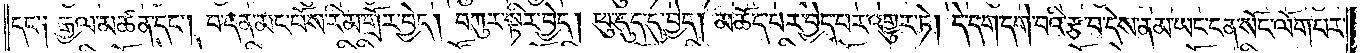དང་༑ རྒྱལ་མཚན་དང༌། བ་དན་མང་པོས་རིམ་གྲོར་བྱེད། བཀུར་སྟིར་བྱེད། ཕུ་དུད་དུ་བྱེད། མཆོད་པར་བྱེད་པར་འགྱུར་ཏེ། དེ་དག་དགེ་བའི་རྩ་བ་དེས་ནམ་ཡང་ངན་སོང་ལོག་པར་
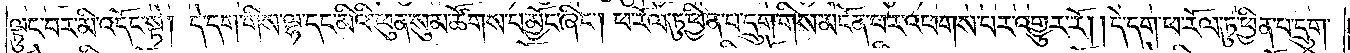ལྟུང་བར་མི་འདོང་སྟེ། དེ་དག་གིས་ལྷ་དང་མིའི་ཕུན་སུམ་ཚོགས་པ་མྱོང་ཞིང༌། ཕ་རོལ་ཏུ་ཕྱིན་པ་དྲུག་གིས་མངོན་པར་འཕགས་པར་འགྱུར་རོ། །དེ་དག་ཕ་རོལ་ཏུ་ཕྱིན་པ་དྲུག་
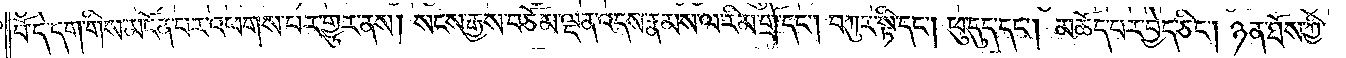པོ་དེ་དག་གིས་མངོན་པར་འཕགས་པར་གྱུར་ནས། སངས་རྒྱས་བཅོམ་ལྡན་འདས་རྣམས་ལ་རིམ་གྲོ་དང༌། བཀུར་སྟི་དང༌། ཕུ་དུད་དང༌། མཆོད་པར་བྱེད་ཅིང༌། ཉན་ཐོས་ཀྱི་
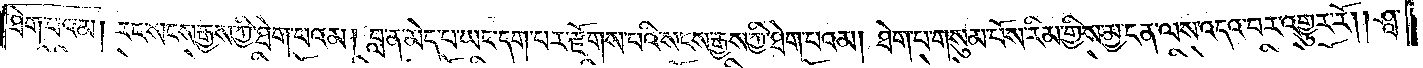ཐེག་པའམ། རང་སངས་རྒྱས་ཀྱི་ཐེག་པའམ། བླ་ན་མེད་པ་ཡང་དག་པར་རྫོགས་པའི་སངས་རྒྱས་ཀྱི་ཐེག་པའམ། ཐེག་པ་གསུམ་པོས་རིམ་གྱིས་མྱ་ངན་ལས་འདའ་བར་འགྱུར་རོ། །ཤཱ་
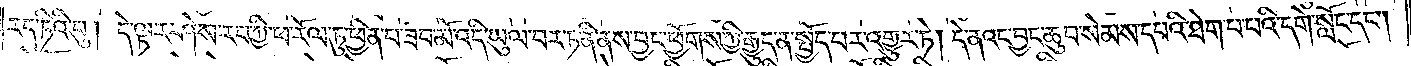རདྭ་ཏིའི་བུ། དེ་ལྟར་ཤེས་རབ་ཀྱི་ཕ་རོལ་ཏུ་ཕྱིན་པ་ཟབ་མོ་འདི་ཡུལ་བར་ཏ་ནི་ནས་བྱང་ཕྱོགས་ཀྱི་རྒྱུད་ན་སྤྱོད་པར་འགྱུར་ཏེ། དེ་ནའང་བྱང་ཆུབ་སེམས་དཔའི་ཐེག་པ་པའི་དགེ་སློང་དང༌།
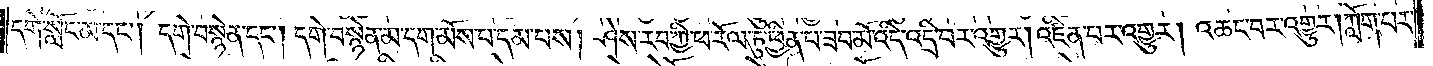དགེ་སློང་མ་དང༌། དགེ་བསྙེན་དང༌། དགེ་བསྙེན་མ་དག་མོས་པ་དམ་པས། ཤེས་རབ་ཀྱི་ཕ་རོལ་ཏུ་ཕྱིན་པ་ཟབ་མོ་འདི་འདྲི་བར་འགྱུར། འཛིན་པར་འགྱུར། འཆང་བར་འགྱུར། ཀློག་པར་
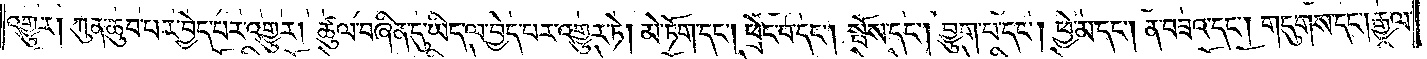འགྱུར། ཀུན་ཆུབ་པར་བྱེད་པར་འགྱུར། ཚུལ་བཞིན་དུ་ཡིད་ལ་བྱེད་པར་འགྱུར་ཏེ། མེ་ཏོག་དང༌། ཕྲེང་བ་དང༌། སྤོས་དང༌། བྱུག་པ་དང༌། ཕྱེ་མ་དང༌། ན་བཟའ་དང༌། གདུགས་དང༌། རྒྱལ་
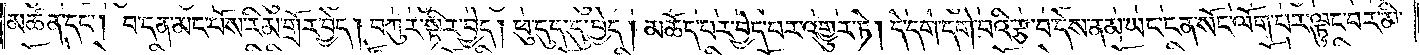མཚན་དང༌། བ་དན་མང་པོས་རིམ་གྲོར་བྱེད། བཀུར་སྟིར་བྱེད། ཕུ་དུད་དུ་བྱེད། མཆོད་པར་བྱེད་པར་འགྱུར་ཏེ། དེ་དག་དགེ་བའི་རྩ་བ་དེས་ནམ་ཡང་ངན་སོང་ལོག་པར་ལྟུང་བར་མི་
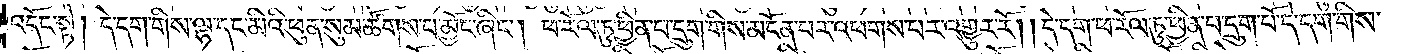འདོང་སྟེ། དེ་དག་གིས་ལྷ་དང་མིའི་ཕུན་སུམ་ཚོགས་པ་མྱོང་ཞིང༌། ཕ་རོལ་ཏུ་ཕྱིན་པ་དྲུག་གིས་མངོན་པར་འཕགས་པར་འགྱུར་རོ། །དེ་དག་ཕ་རོལ་ཏུ་ཕྱིན་པ་དྲུག་པོ་དེ་དག་གིས་
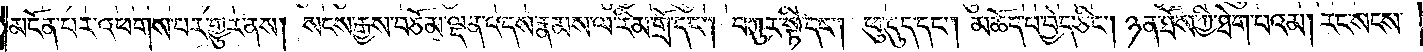མངོན་པར་འཕགས་པར་གྱུར་ནས། སངས་རྒྱས་བཅོམ་ལྡན་འདས་རྣམས་ལ་རིམ་གྲོ་དང༌། བཀུར་སྟི་དང༌། ཕུ་དུད་དང༌། མཆོད་པ་བྱེད་ཅིང༌། ཉན་ཐོས་ཀྱི་ཐེག་པའམ། རང་སངས་
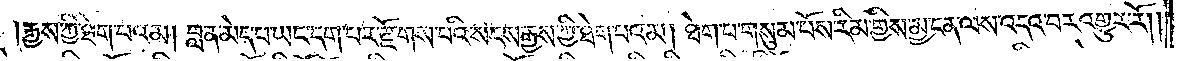རྒྱས་ཀྱི་ཐེག་པའམ། བླ་ན་མེད་པ་ཡང་དག་པར་རྫོགས་པའི་སངས་རྒྱས་ཀྱི་ཐེག་པའམ། ཐེག་པ་གསུམ་པོས་རིམ་གྱིས་མྱ་ངན་ལས་འདའ་བར་འགྱུར་རོ། །
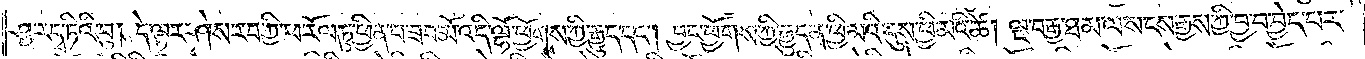ཤཱ་ར་དྭ་ཏིའི་བུ། དེ་ལྟར་ཤེས་རབ་ཀྱི་ཕ་རོལ་ཏུ་ཕྱིན་པ་ཟབ་མོ་འདི་ལྷོ་ཕྱོགས་ཀྱི་རྒྱུད་དང༌། བྱང་ཕྱོགས་ཀྱི་རྒྱུད་ན་ཕྱི་མའི་དུས་ཕྱི་མའི་ཚེ། ལྔ་བརྒྱ་ཐ་མ་ལ་སངས་རྒྱས་ཀྱི་བྱ་བ་བྱེད་པར་
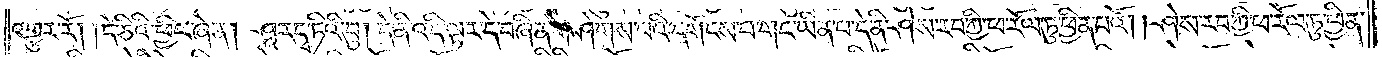འགྱུར་རོ། །དེ་ཅིའི་ཕྱིར་ཞེ་ན། ཤཱ་ར་དྭ་ཏིའི་བུ། དེ་ནི་འདི་ལྟར་དེ་བཞིན་གཤེགས་པའི་དགོངས་པ་གང་ཡིན་པ་དེ་ནི་ཤེས་རབ་ཀྱི་ཕ་རོལ་ཏུ་ཕྱིན་པའོ། །ཤེས་རབ་ཀྱི་ཕ་རོལ་ཏུ་ཕྱིན་
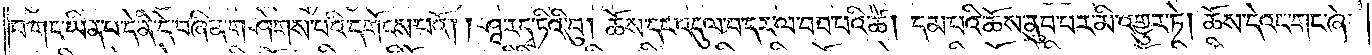པ་གང་ཡིན་པ་དེ་ནི་དེ་བཞིན་གཤེགས་པའི་དགོངས་པའོ། །ཤཱ་ར་དྭ་ཏིའི་བུ། ཆོས་དང་འདུལ་བ་དར་ལ་བབ་པའི་ཆེ། དམ་པའི་ཆོས་ནུབ་པར་མི་འགྱུར་ཏེ། ཆོས་དེའང་གང་ཞེ་
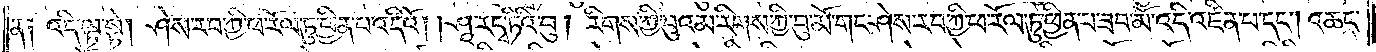ན༑ འདི་ལྟ་སྟེ། ཤེས་རབ་ཀྱི་ཕ་རོལ་ཏུ་ཕྱིན་པ་འདིའོ། །ཤཱ་ར་དྭ་ཏིའི་བུ། རིགས་ཀྱི་བུའམ་རིགས་ཀྱི་བུ་མོ་གང་ཤེས་རབ་ཀྱི་ཕ་རོལ་ཏུ་ཕྱིན་པ་ཟབ་མོ་འདི་འཛིན་པ་དང༌། འཆང་
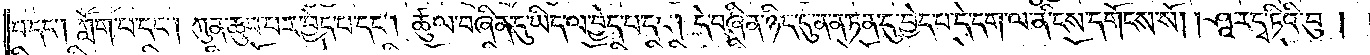བ་དང༌། ཀློག་པ་དང༌། ཀུན་ཆུབ་པར་བྱེད་པ་དང༌། ཚུལ་བཞིན་དུ་ཡིད་ལ་བྱེད་པ་དང༌། དེ་བཞིན་ཉིད་དུ་ནན་ཏན་དུ་བྱེད་པ་དེ་དག་ལ་ནི་ངས་དགོངས་སོ། །ཤཱ་ར་དྭ་ཏིའི་བུ།
